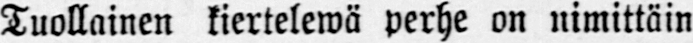Tuollainen kiertelewä perhe on nimittäin
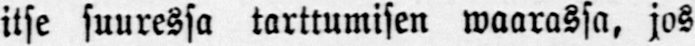itse suuressa tarttumisen wäärässä, jos
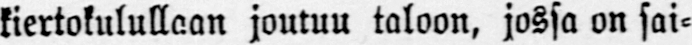kiertokulullaan joutuu taloon, jossa on sai-
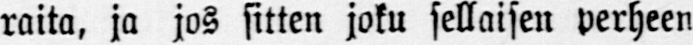raita, ja jos sitten joku sellaisen perheen
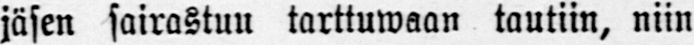jäsen sairastuu tarttuwaan tautiin, niin
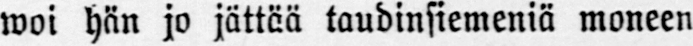woi hän jo jättää taudinsiemeniä moneen
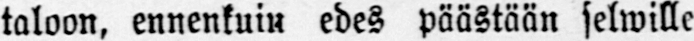taloon, ennenkuin edes päästään selwille
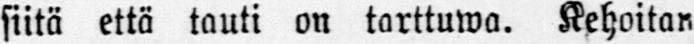siitä että tauti on tarttuwa. Kehoitan
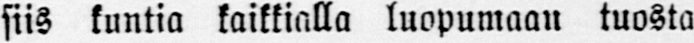siis kuntia kaikkialla luopumaan tuosta
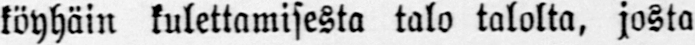köyhäin kulettamisesta talo talolta, josta
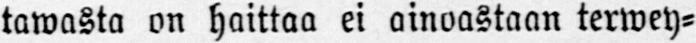tawasta on haittaa ei ainoastaan terwey-
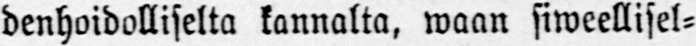denhoidolliselta kannalta, waan siwellisel-
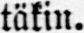täkin.
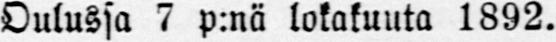Oulussa 7 p:nä lokakuuta 1892.
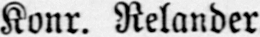Konr. Relander.
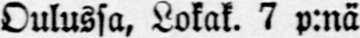Oulussa, Lokak. 7 p:nä.
